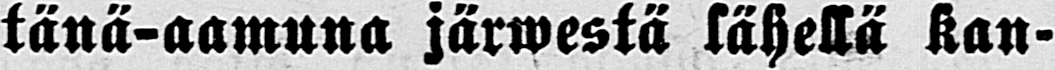tänä-aamuna järwestä lähellä kan-
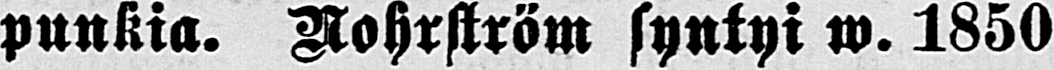punkia. Nohrström syntyi w. 1850
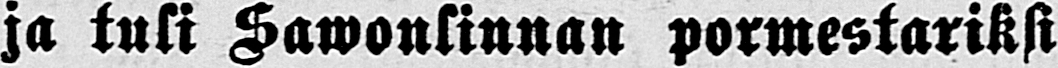ja tuli Sawonlinnan pormestariksi
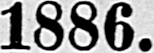1886.
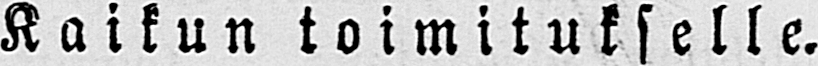Kaikun toimitukselle.
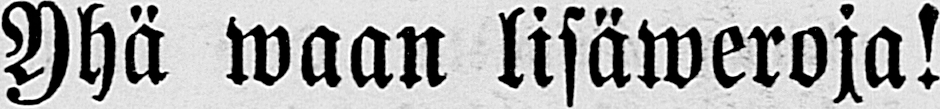Yhä waan lisäweroja!
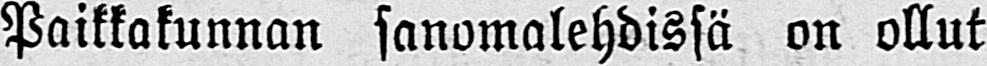Paikkakunnan sanomalehdissä on ollut
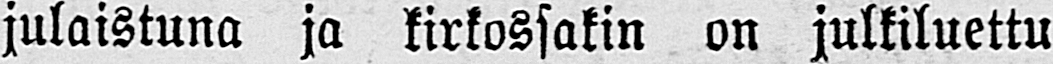julaistuna ja kirkossakin on julkiluettu
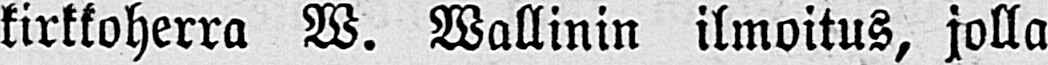kirkkoherra W. Wallinin ilmoitus, jolla
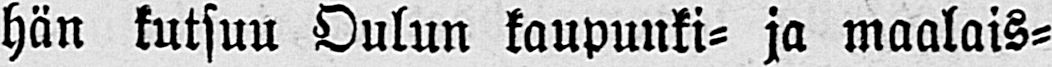hän kutsuu Oulun kaupunki- ja maalais-
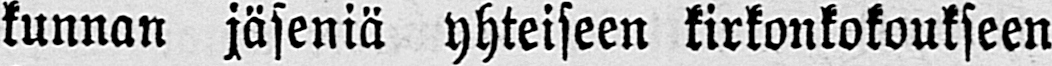kunnan jäseniä yhteiseen kirkonkokoukseen
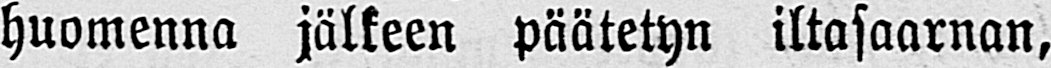huomenna jälkeen päätetyn iltasaarnan,
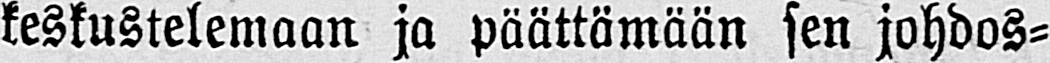keskustelemaan ja päättämään sen johdos-
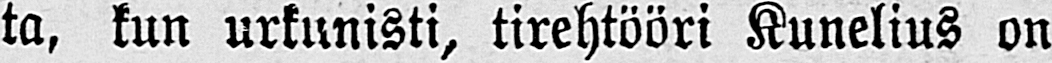ta, kun urkunisti, tirehtööri Kunelius on
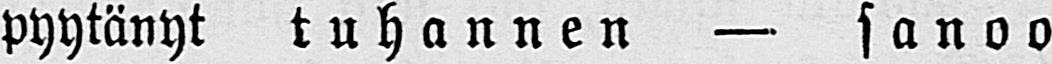pyytänyt tuhannen — sanoo
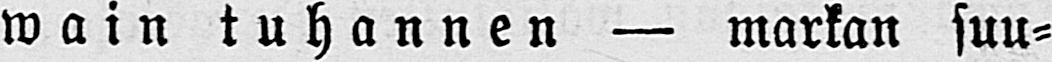main tuhannen — markan suu-
